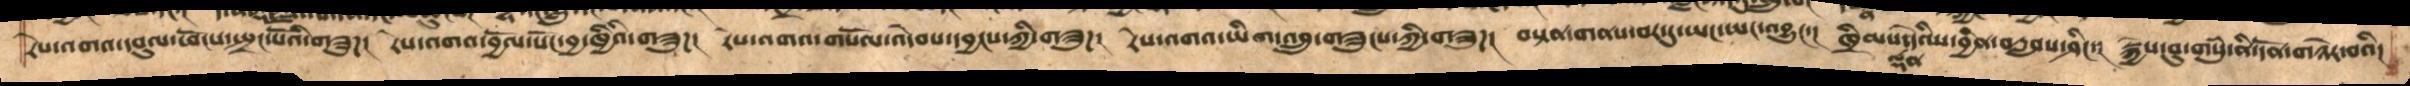རེས་འགའ་དབུལ་འཕོངས་སྤྲང་པོའི་གཟུཌ། རེས་འགའ་བྱོལ་སོང་བྱ་ཁྱིའི་གཟུཌ། རེས་འགའ་གསོལ་འདེབས་དབྱངས་ཀྱི་གཟུཌ། རེས་འགའ་ཡིག་འབྲུ་གཟུངས་ཀྱི་གཟུཌ། བསྟན་གནས་བར་དུ་ཡང་ཡང་འབྱུང་། ཁྲིམས་ལྡན་དེའིས་བྱིན་བརླབས་ཤིང་།  སྐྱེས་བུ་གསུཾ་ནི་དོན་གཉེར་བའི།
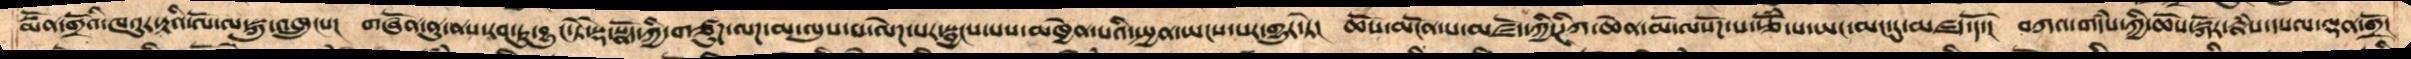སྨོན་གྲོའི་ཁའུར་རྟའི་ལོ་ལ་སྐུ་འཁྲུངས།  གཞོན་ནུ་ནས་རབ་ཏུ་བྱུང་ཏེ་སྡེ་སྣོད་ཀྱི་གཙུཌ་ལཌ་མ་ལུས་པ་ལེཌ་པར་སྦྱངས་པས་མཁྱེན་པའི་སྤྱན་ཡངས་པར་གྱུར་ཏེ།  ཆོས་མངོན་པ་མཛོད་ཀྱི་ཌིཀ་ཆེན་མོ་ལསོཌ་པ་རྩོཾ་པ་ཡང་མང་དུ་མཛད་དོ་།  བཀའ་གདཾས་ཀྱི་ཆོས་སྐོར་རྣཾས་དཔལ་ལྡན་གྲོ།
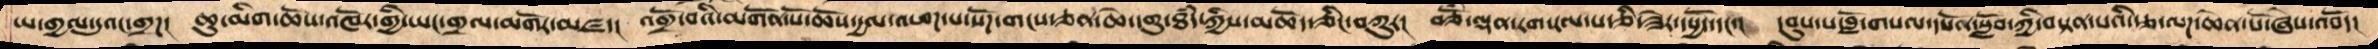ཡ་གྱལ་དུའང་གྲཌ།   ཆུ་མིག་ཆོས་འཁོར་གྱི་ཡང་གྲལ་མགོན་མཛད།  འགྲོ་བའི་མགོན་པོ་ཆོས་དྱལ་འཕཌ་པ་སོཌ་གངས་ཅན་ཆེ་དགུ་ཐཾད་ཀྱིས་མཆོད་ཅིང་བཀུར།   བཅོཾ་ལྡན་རག་རལ་པ་ཅི་ཟེར་དཔྱོད་དང་།   དབུས་པ་བློ་གསལ་དཔོན་སློབ་ཀྱི་བསྟན་པའི་རྩ་ལཌ་ཆེན་པོ་ཞེས་འབོད།
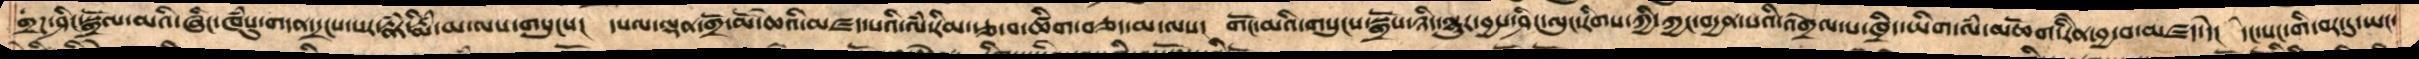གྲཌ་ཤིང་སྒྲོལ་མའི་ཞིང་ཁཾསུ་གདན་དྲངས་པར་རྣཾར་རྨིཾ་མ་ལས་གསུངས།  དཔལ་ལྡན་གྲོ་མོ་ཆེའི་མཛད་པའི་ལཾ་རིམ་རྩ་བ་ཚིག་བཅད་མ་ལས།  གོང་མའི་གསུངས་སྒྲོས་ཉིད་ལྷུར་བྱས་ཤིང་ལུང་རིགས་ཀྱི་ཀྱང་བདྱན་པའི་འགྲེལ་པ་ཁྲིད་ཡིག་ལཾ་མཆོག་རིནེ་བྱ་བ་མཛད་དེ།   དེང་སང་གི་བར་དུ་ཡང་
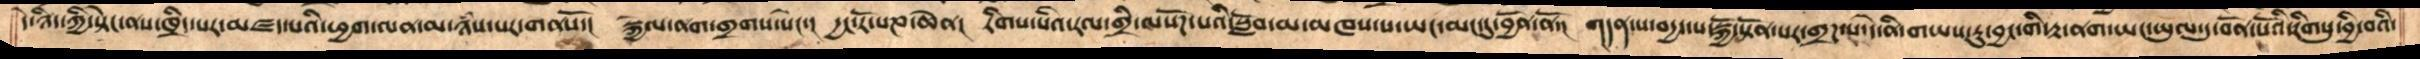དེ་ཉིད་ཀྱི་སྟེང་ནས་ཁྲིད་པར་མཛད་པའི་ཕྱག་ལན་མ་ཉཾས་པར་གནསོ་།  སྐྱེལ་ནག་གྲགས་སེང་།  དྱང་རོ་པཎ་ཆེན།  རིགས་པའི་རལ་གྲི་ལསོཌ་པའི་སློབ་མ་མཁས་པ་ཡང་མང་དུ་བྱོན་ནོ་།  གདན་ས་བདྱད་པ་སྐྱོ་སྟོན་པར་གྲཌ་པ་དེ་ནི་གཡས་རུ་བྱང་གི་རྟ་ནག་ཡང་ཡུལ་དུ་བོན་པོའི་རིགསུ་བྱི་བའི་
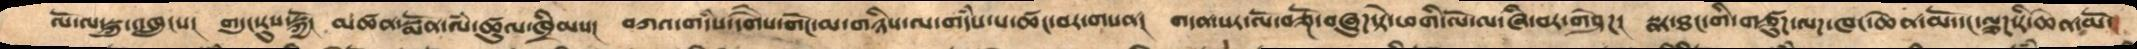ལོ་ལ་སྐུ་འཁྲུངས།  གདུང་རུས་སྐྱོ།  མཚན་སྨོན་ལཾ་ཚུལ་ཁྲིམས།  བཀའ་གདཾས་དགཻས་གོང་མ་གཉིས་ལ་གདཾས་པ་ཚང་བར་གསན།  གདན་སར་ལོ་བཅྔོ་བཞུཌ་ཏེ་ཕགི་ལོ་ལ་ཞི་བར་གཤེཌ།  སྣར་ཐང་གི་གཙུཌ་ལཌ་ཁང་ཆེན་མོ་དང་ལྕཌ་རི་ཆེན་མོ་
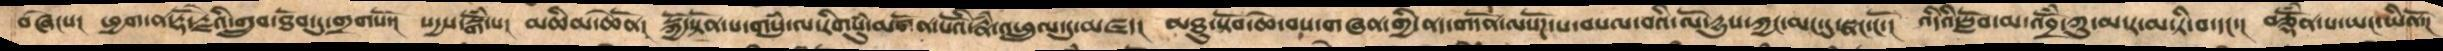བཞེངས་།  ཕྱག་ན་རྡོ་རྗེའི་གྲུབ་ཐོབ་དུ་གྲགསོ་།   སདྱས་སྒོཾ་པ།  མཆིམ་ཆེནོ།  སྐྱོ་སྟོན་པ་གསུཾ་ལ་རིགསུཾ་མགོན་པོའི་རྣཾ་འཕྲུལ་དུ་མཛད།   མཐུ་སྟོབ་ཆེ་བས་གཞན་གྱི་ནད་གདོན་ལསོགས་པ་བསལ་བའི་ལོ་དྱུས་ཀྱང་མང་དུ་སྣང་ངོ་།  འདིའི་སློབ་མ་འབྲོཾ་ཀུ་མ་ར་མ་ཏི་བ་དང་།   བཅྡོཾན་པ་ཡང་ཡིནོ་།
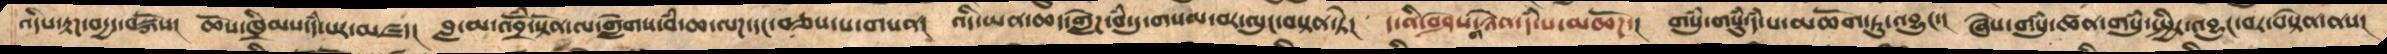འདིས་རྟཌ་བདྱད་བསྐོས། ཆོས་ཁྲིམས་དཾ་པར་མཛད། བླ་མ་འབྲོཾ་སྟོན་ལ་གླེགས་བཾ་ཆ་ལཌ་དང་བཅས་པ་གསན། འདི་ཡན་ཆད་གླེཌ་བཾ་དུ་གསལ་བར་ལུང་བསྟན་ཏེ། ད་ནི་བཤེས་གཉེན་དཾ་པ་མཆོཌ་། གསུཾ་གསུཾ་དཾ་པ་མཆོག་ཏུ་འབྱུང་། ཞེས་གསུཾ་ཚན་གསུཾ་སྤྱིར་འབྱུང་བར་བསྟེན་ནས།
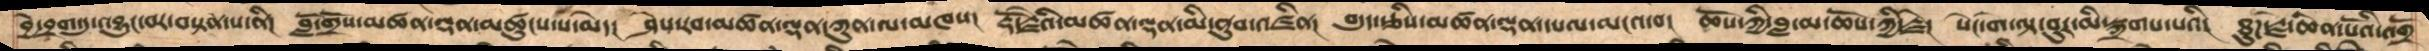བྱེ་བྲག་དུ་འབྱུང་བར་བསྟན་པ་ནི།  བློ་གྲོས་མཚན་ལྡན་མཚུངས་པ་མེད།   ཤེས་རབ་མཚན་ལྡན་ཀུན་ལ་མཁས།  རྡོ་རྗེའི་མཚན་ལྡན་མི་ནུབ་འཛིན།   བདུད་རྩིས་མཚན་ལྡན་དཔལ་མངའ་བ།  ཆོས་ཀྱི་བླ་མ་ཆོས་ཀྱི་རྗེ།  སེང་གེ་ལྟ་བུར་མི་སྐྲགས་པའི།  ཐུཌ་རྗེ་ཆེན་པོའི་འགྲོ
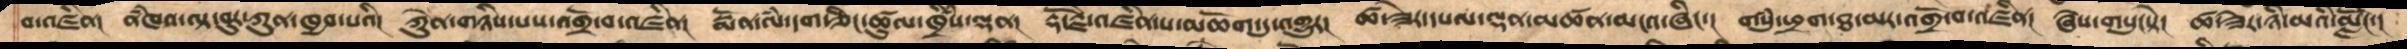བ་འཛིན།  ནཾཁའ་ལྟ་བུར་ཀུན་ཁྱབ་པའི།  ཀེུན་གཉིས་པས་འགྲོ་བ་འཛིན།  སྨོན་ལཾ་དག་ཅིང་ཚུལ་ཁྲིཾས་ལྡན།  རྡོ་རྗེ་འཛིན་པ་མཆོག་དུ་འགྱུར།  ཚ་ཟེར་དཔལ་ལྡན་མཚན་མངའ་ཞིང་།  གསུཾ་ཕྲག་ཐ་མར་འགྲོ་བ་འཛིན།  ཞེས་གསུངསྟེ།  ཚ་ཟེར་ཉི་མའི་མླེངོ་།
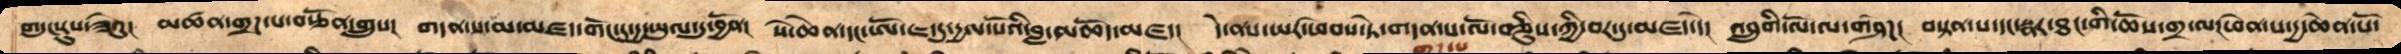གདུང་རུས་ཟེའུ། མཚན་གྲཌ་པ་བརྩོན་གྲུས། གདན་ས་མ་མཛད་གོང་དུ་དྱ་ཡུལ་དུ་བྱོན། སེ་ཆེན་དང་ཨོ་ཇ་དུ་དྱལ་པོའི་བླ་མཆོད་མཛད། དེ་ནས་ཡར་ཕེབས་ཏེ་གདན་ས་ལོ་བཅིུས་ཀྱི་བར་དུ་མཛད་དེ། འབྲུགི་ལོ་ལ་གཤེཌ། བསྟན་པ་དང་སྣར་ཐང་གི་ཆོས་གྲ་ལ།ཕེན་པ་དྱ་ཆེན་པོ་
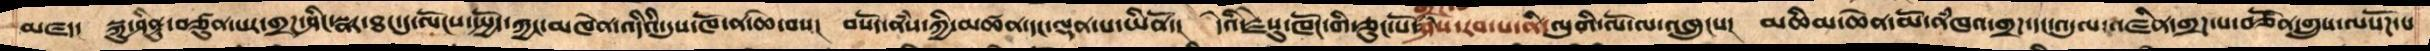མཛད་  སྐུ་ཤིནྟུ་བཙུན་པར་གྲཌ་ཤིང་སྣར་ཐང་དུ་ལོངས་སྤྱོད་ཀྱང་མཁེན་འདིའི་དུས་ཁོ་ན་ཆེ་བས།  བསོད་ནཾས་ཀྱི་མཚན་དང་ལྡན་པ་ཡིནོ་།  དེའི་རྗེསུ་ཁོང་གི་ཅུང་པོ་ཤེས་རབ་པ་ནི་ལུགི་ལོ་ལ་འཁྲུངས།  མཆིམ་ཆེན་མོ་ནཾཁའ་གྲཌ་དང་འདུལ་འཛིན་གྲཌ་པ་བརྩོན་གྲུས་ལསོཌ་པ
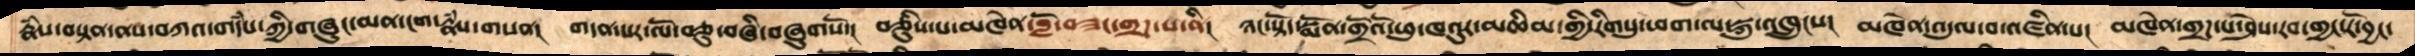རྣཾས་བསྟན་ནས་བཀའ་གདཾས་ཀྱི་གཞུང་མན་ངག་རྣཾས་གསན།  གདན་སར་ལོ་བཅུ་བཞི་བཞུགསོ་།  བཅིུས་པ་མཁེན་བློ་བཟང་གྲཌ་པ་ནི།  ཉང་སྟོད་སྨོན་གྲོའི་ཕུ་ཁའུར་མཆིམ་ཀྱི་རིགསུ་ཕག་ལ་སྐུ་འཁྲུངས།  མཁེན་འདུལ་བ་འཛིན་པ།  མཁེན་གྲཌ་པ་ཤེས་རབ་གྱང་རོ་བྱང་
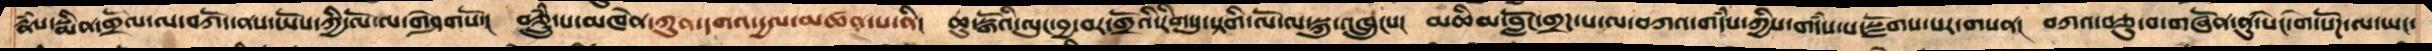རྣཾས་སྨིན་གྲོལ་ལ་བཀོད་ནས་ཡོས་ཀྱི་ལོ་ལ་གཤེགསོ་།  བཅྲུཾ་པ་མཁེན་ཀུན་དགའ་དྱལ་མཚན་པ་ནི།  ཆུ་སྒོའི་ལུང་བྱ་བར་གྲོའི་རིགསུ་སྟགི་ལོ་ལ་སྐུ་འཁྲུངས།  མཆིམ་བློང་གྲཌ་པ་ལ་བཀའ་གདཾས་ཀྱིས་གདཾས་པ་་སྫོགས་པར་གསན།  དཀའ་བཅུ་བ་གཞོན་ནུ་སེང་གེ་སོཌ་ལ་ཡང་
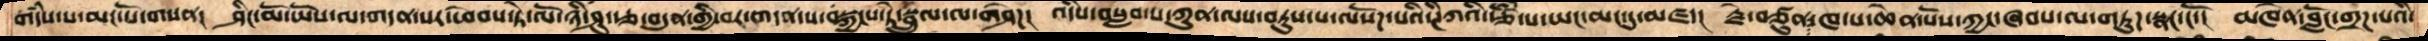གདཾས་པ་མང་པོ་གསན།  ཤིང་མོ་ཡོས་ལ་གདན་སར་ཕེབས་སྟེ་ལོ་ཉི་ཤུ་རྩ་བདུན་གྱི་བར་གདན་ས་བསྐྱངས་ཏེ་སྦྲུལ་ལ་གཤེཌ།  འདིས་བསླབ་པ་ཀུན་ལས་བཏུས་པ་ལསོཌ་པའི་ཊིཀའི་རྩོཾ་པ་ཡང་མང་དུ་མཛད།  རྗེ་བཙུན་ཁ་པ་ཆེན་པོས་ཀྱང་ཞབས་ལ་གཏུཌ་སྣང་ངོ་།  མཁེན་བློང་གྲཌ་པའི་
